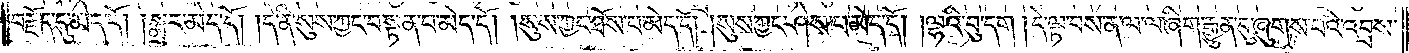བརྗོད་དུ་མེད་དོ། །སྨྲར་མེད་དོ། །དེ་ནི་སུས་ཀྱང་བསྟན་པ་མེད་དོ། །སུས་ཀྱང་ཐོས་པ་མེད་དོ། །སུས་ཀྱང་ཤེས་པ་མེད་དོ། །ལྷའི་བུ་དག །དེ་ལྟ་བས་ན་ལ་ལ་ཞིག་རྒྱུན་དུ་ཞུགས་པའི་འབྲས་
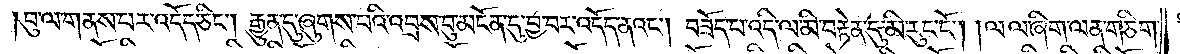བུ་ལ་གནས་པར་འདོད་ཅིང༌། རྒྱུན་དུ་ཞུགས་པའི་འབྲས་བུ་མངོན་དུ་བྱ་བར་འདོད་ནའང༌། བཟོད་པ་འདི་ལ་མི་བརྟེན་དུ་མི་རུང་ངོ༌། །ལ་ལ་ཞིག་ལན་ཅིག་
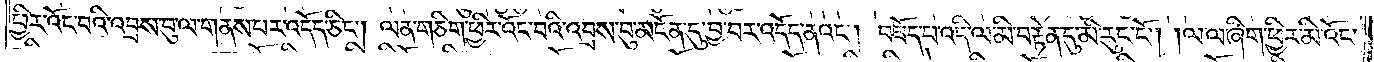ཕྱིར་འོང་བའི་འབྲས་བུ་ལ་གནས་པར་འདོད་ཅིང༌། ལན་ཅིག་ཕྱིར་འོང་བའི་འབྲས་བུ་མངོན་དུ་བྱ་བར་འདོད་ནའང༌། བཟོད་པ་འདི་ལ་མི་བརྟན་དུ་མི་རུང་ངོ༌། །ལ་ལ་ཞིག་ཕྱིར་མི་འོང་
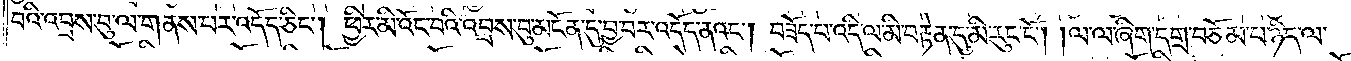བའི་འབྲས་བུ་ལ་གནས་པར་འདོད་ཅིང༌། ཕྱིར་མི་འོང་བའི་འབྲས་བུ་མངོན་དུ་བྱ་བར་འདོད་ནའང༌། བཟོད་པ་འདི་ལ་མི་བརྟེན་དུ་མི་རུང་ངོ༌། །ལ་ལ་ཞིག་དགྲ་བཅོམ་པ་ཉིད་ལ་
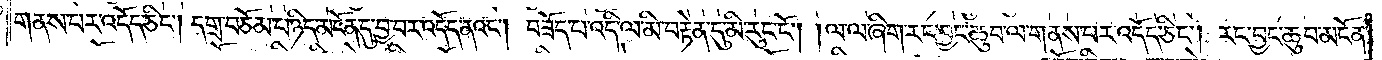གནས་པར་འདོད་ཅིང༌། དགྲ་བཅོམ་པ་ཉིད་མངོན་དུ་བྱ་བར་འདོད་ནའང༌། བཟོད་པ་འདི་ལ་མི་བརྟེན་དུ་མི་རུང་ངོ༌། །ལ་ལ་ཞིག་རང་བྱང་ཆུབ་ལ་གནས་པར་འདོད་ཅིང༌། རང་བྱང་ཆུབ་མངོན་
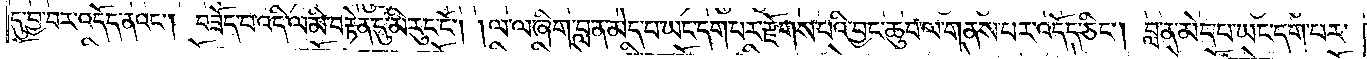དུ་བྱ་བར་འདོད་ནའང༌། བཟོད་པ་འདི་ལ་མི་བརྟེན་དུ་མི་རུང་ངོ༌། །ལ་ལ་ཞིག་བླ་ན་མེད་པ་ཡང་དག་པར་རྫོགས་པའི་བྱང་ཆུབ་ལ་གནས་པར་འདོད་ཅིང༌། བླ་ན་མེད་པ་ཡང་དག་པར་
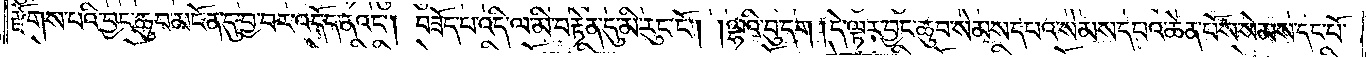རྫོགས་པའི་བྱང་ཆུབ་མངོན་དུ་བྱ་བར་འདོད་ནའང༌། བཟོད་པ་འདི་ལ་མི་བརྟེན་དུ་མི་རུང་ངོ༌། །ལྷའི་བུ་དག །དེ་ལྟར་བྱང་ཆུབ་སེམས་དཔའ་སེམས་དཔའ་ཆེན་པོས་སེམས་དང་པོ་
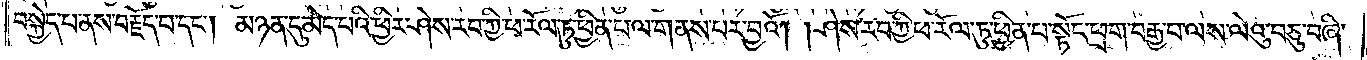བསྐྱེད་པ་ནས་བརྗོད་པ་དང༌། མཉན་དུ་མེད་པའི་ཕྱིར་ཤེས་རབ་ཀྱི་ཕ་རོལ་ཏུ་ཕྱིན་པ་ལ་གནས་པར་བྱའོ། །ཤེས་རབ་ཀྱི་ཕ་རོལ་ཏུ་ཕྱིན་པ་སྟོང་ཕྲག་བརྒྱ་པ་ལས་ལེའུ་བཅུ་བཞི་
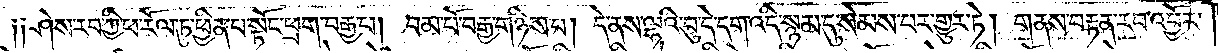ཤེས་རབ་ཀྱི་ཕ་རོལ་ཏུ་ཕྱིན་པ་སྟོང་ཕྲག་བརྒྱ་པ། །བམ་པོ་བརྒྱ་གཉིས་པ། །དེ་ནས་ལྷའི་བུ་དེ་དག་འདི་སྙམ་དུ་སེམས་པར་གྱུར་ཏེ། གནས་བརྟན་རབ་འབྱོར་
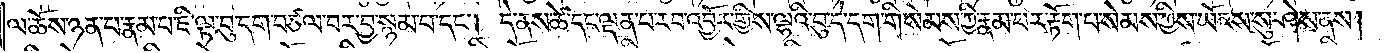ལ་ཆོས་ཉན་པ་རྣམ་པ་ཇི་ལྟ་བུ་དག་བཙལ་བར་བྱ་སྙམ་པ་དང༌། དེ་ནས་ཚེ་དང་ལྡན་པ་རབ་འབྱོར་གྱིས་ལྷའི་བུ་དེ་དག་གི་སེམས་ཀྱི་རྣམ་པར་རྟོག་པ་སེམས་ཀྱིས་ཡོངས་སུ་ཤེས་ནས།
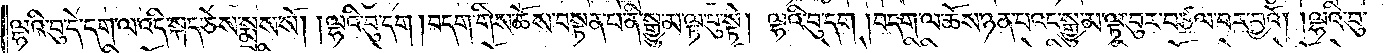ལྷའི་བུ་དེ་དག་ལ་འདི་སྐད་ཅེས་སྨྲས་སོ། །ལྷའི་བུ་དག །བདག་གིས་ཆོས་བསྟན་པ་ནི་སྒྱུ་མ་ལྟ་བུ་སྟེ། ལྷའི་བུ་དག །བདག་ལ་ཆོས་ཉན་པའང་སྒྱུ་མ་ལྟ་བུར་བཙལ་བར་བྱའོ། །ལྷའི་བུ་
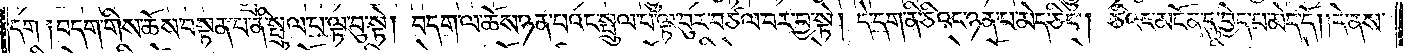དག ༏བདག་གིས་ཆོས་བསྟན་པ་ནི་སྤྲུལ་པ་ལྟ་བུ་སྟེ། བདག་ལ་ཆོས་ཉན་པའང་སྤྲུལ་པ་ལྟ་བུར་བཅལ་བར་བྱ་སྟེ། དེ་དག་ནི་ཅིའང་ཉན་པ་མེད་ཅིང༌། ཅིའང་མངོན་དུ་བྱེད་པ་མེད་དོ། །དེ་ནས་
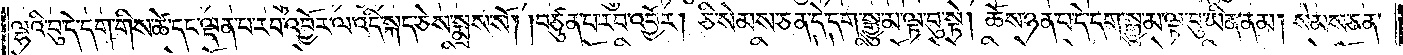ལྷའི་བུ་དེ་དག་གིས་ཚེ་དང་ལྡན་པ་རབ་འབྱོར་ལ་འདི་སྐད་ཅེས་སྨྲས་སོ། །བཙུན་པ་རབ་འབྱོར། ཅི་སེམས་ཅན་དེ་དག་སྒྱུ་མ་ལྟ་བུ་སྟེ། ཆོས་ཉན་པ་དེ་དག་སྒྱུ་མ་ལྟ་བུ་ཡིན་ནམ། སེམས་ཅན་
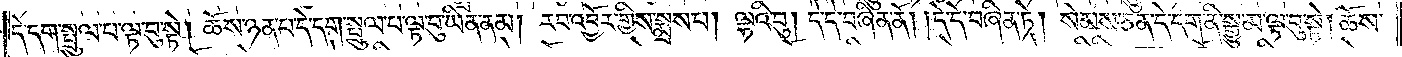དེ་དག་སྤྲུལ་པ་ལྟ་བུ་སྟེ། ཆོས་ཉན་པ་དེ་དག་སྤྲུལ་པ་ལྟ་བུ་ཡིན་ནམ། རབ་འབྱོར་གྱིས་སྨྲས་པ། ལྷའི་བུ། དེ་དེ་བཞིན་ནོ། །དེ་དེ་བཞིན་ཏེ། སེམས་ཅན་དེ་དག་ནི་སྒྱུ་མ་ལྟ་བུ་སྟེ། ཆོས་
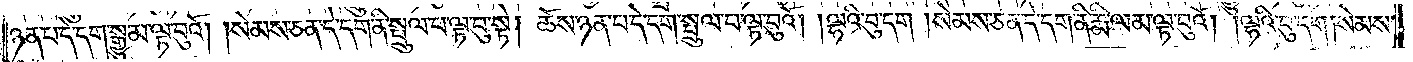ཉན་པ་དེ་དག་སྒྱུ་མ་ལྟ་བུའོ། །སེམས་ཅན་དེ་དག་ནི་སྤྲུལ་པ་ལྟ་བུ་སྟེ། ཆོས་ཉན་པ་དེ་དག་སྤྲུལ་པ་ལྟ་བུའོ། །ལྷའི་བུ་དག །སེམས་ཅན་དེ་དག་ནི་རྨི་ལམ་ལྟ་བུའོ། །ལྷའི་བུ་དག། །སེམས་
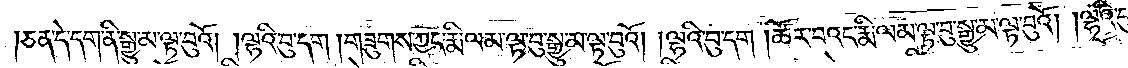ཅན་དེ་དག་ནི་སྒྱུ་མ་ལྟ་བུའོ། །ལྷའི་བུ་དག །གཟུགས་ཀྱང་རྨི་ལམ་ལྟ་བུ་སྒྱུ་མ་ལྟ་བུའོ། །ལྷའི་བུ་དག །ཚོར་བའང་རྨི་ལམ་ལྟ་བུ་སྒྱུ་མ་ལྟ་བུའོ། །ལྷའི་བུ་
